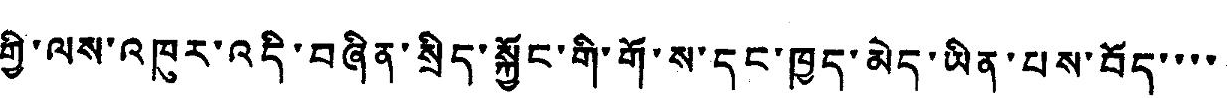གྱི་ལས་འཁུར་འདི་བཞིན་སྲིད་སྐྱོང་གི་གོ་ས་དང་ཁྱད་མེད་ཡིན་པས་བོད་་་་
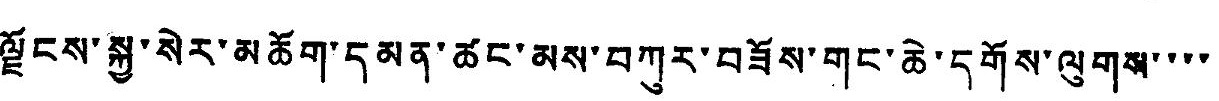ལྗོངས་སྐྱ་སེར་མཆོག་དམན་ཚང་མས་བཀུར་བཟོས་གང་ཆེ་དགོས་ལུགས་་་་
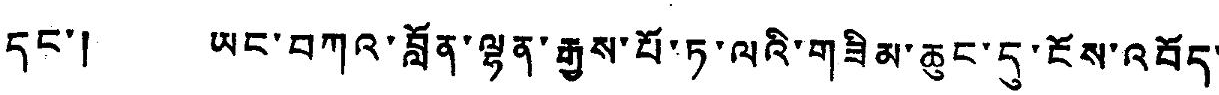དང་། ཡང་བཀའ་བློན་ལྷན་རྒྱས་པོ་ཏ་ལའི་གཟིམས་ཆུང་དུ་ངོས་འབོད་
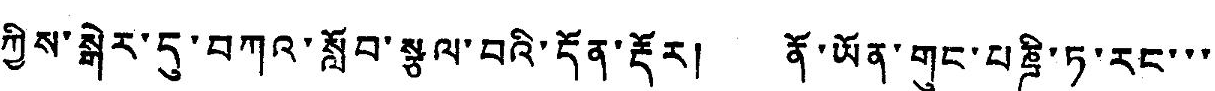ཀྱིས་སྒེར་དུ་བཀའ་སློབ་སྩལ་བའི་དོན་རྡོར། ནོ་ཡོན་གུང་པཎྜི་ཏ་རང་་་
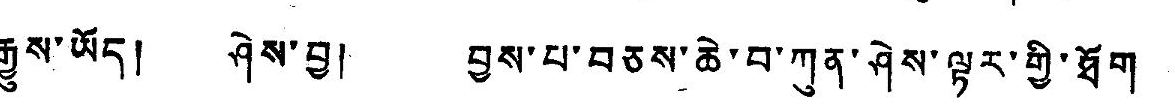རྒྱུས་ཡོད། ཤེས་བྱ། བྱ་པ་བཅས་ཆེ་བ་ཀུན་ཤེས་ལྟར་གྱི་ཐོག
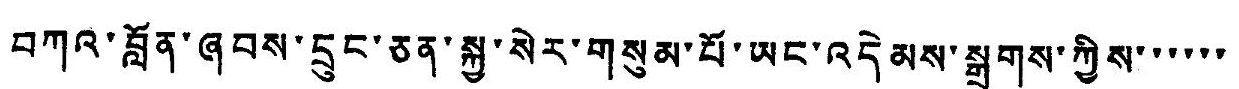བཀའ་བློན་ཞབས་དྲུང་ཅན་སྐྱ་སེར་གསུམ་པོ་ཡང་འདེམས་སྒྲུགས་ཀྱིས་་་་་་
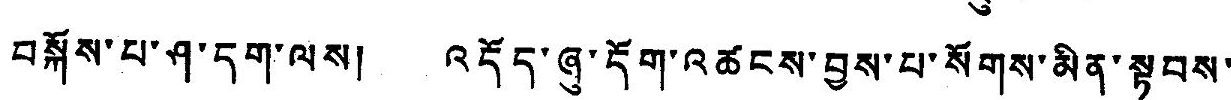བསྐོས་པ་ཤ་དག་ལས། འདོད་ཞུ་དོག་འཚངས་བྱས་པ་སོགས་མིན་སྟབས་
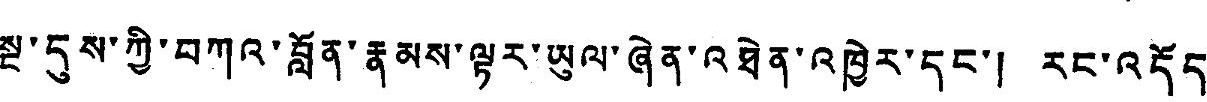སྔ་དུས་ཀྱི་བཀའ་བློན་རྣམས་ལྟར་ཡུལ་ཞེན་འཐེན་འཁྱེར་དང་། རང་འདོད་
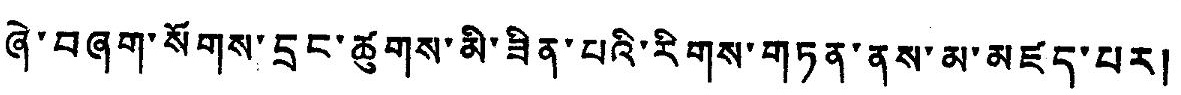ཞེ་བཞག་སོགས་དྲང་ཚུགས་མི་ཟིན་པའི་རིགས་གཏན་ནས་མ་མཛད་པར།
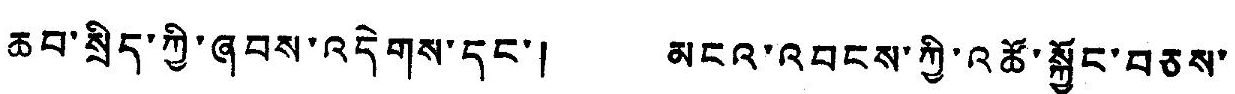ཆབ་སྲིད་ཀྱི་ཞབས་འདེགས་དང་། མངའ་འབངས་ཀྱི་འཚོ་སྐྱོང་བཅས་
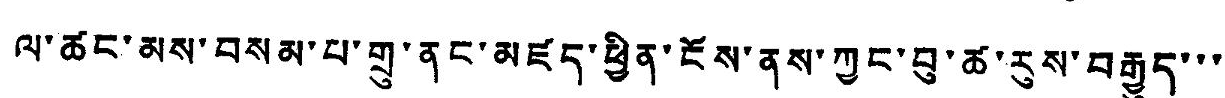ལ་ཚང་མས་བསམ་པ་གྲུ་ནང་མཛད་ཕྱིན་ངོས་ནས་ཀྱང་བུ་ཚ་རུས་བརྒྱུད་་་
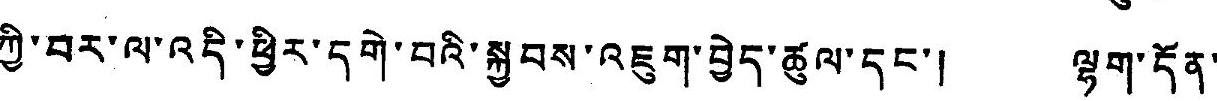ཀྱི་བར་ལ་འདི་ཕྱིར་དགེ་བའི་སྐྱབས་འཇུག་བྱེད་ཚུལ་དང་། ལྷག་དོན་
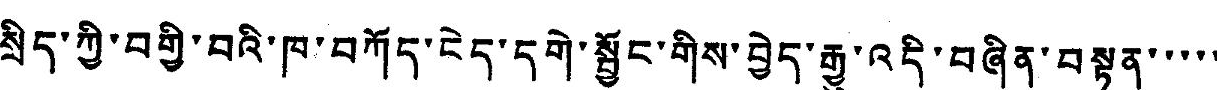སྲིད་ཀྱི་བགྱིས་བའི་ཁ་བཀོད་ངེད་དགེ་སྦྱོང་གིས་བྱེད་རྒྱུ་འདི་བཞིན་བསྟན་་་་་
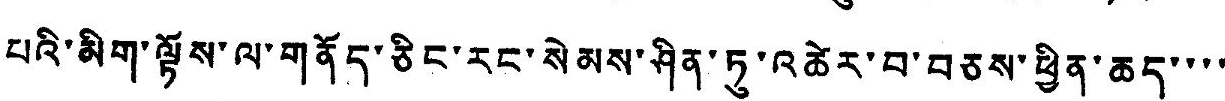པའི་མིག་ལྟོས་ལ་གནོད་ཅིང་རང་སེམས་ཤིན་ཏུ་འཚེར་བ་བཅས་ཕྱིན་ཆད་་་་
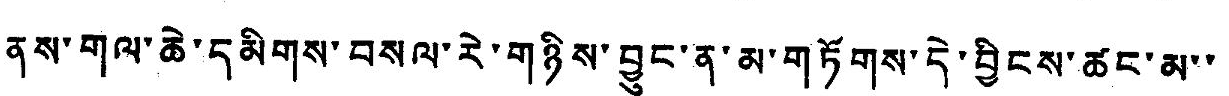ནས་གལ་ཆེ་དམིགས་བསལ་རེ་གཉིས་བྱུང་ན་མ་གཏོགས་དེ་བྱིངས་ཚང་མ་་
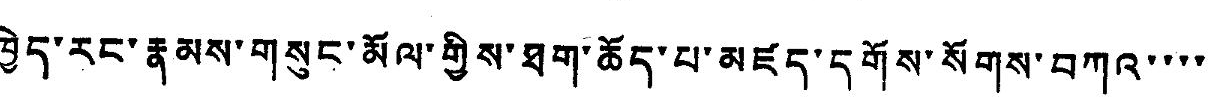ཁྱེད་རང་རྣམས་གསུང་མོལ་གྱིས་ཐག་ཆོད་པ་མཛད་དགོས་སོགས་བཀའ་་་་
